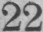22
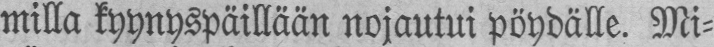milla kyynyspäillään nojautui pöydälle. Mi-
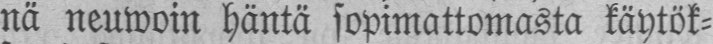nä neuwoin häntä sopimattomasta käytök-
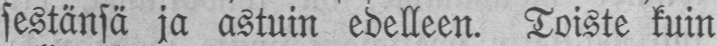sestänsä ja astuin edelleen. Toiste kuin
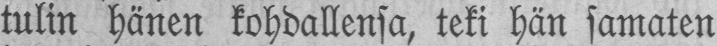tulin hänen kohdallensa, teki hän samaten
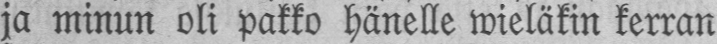ja minun oli pakko hänelle wieläkin kerran
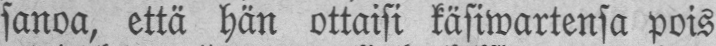sanoa, että hän ottaisi käsiwartensa pois
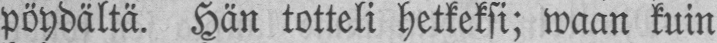pöydältä. Hän totteli hetkeksi; waan kuin
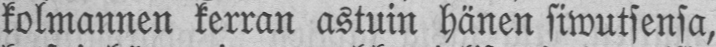kolmannen kerran astuin hänen siwutsensa,
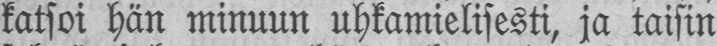katsoi hän minuun uhkamielisesti, ja taisin
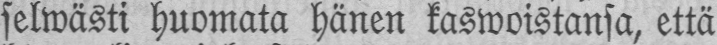selwästi huomata hänen kaswoistansa, että
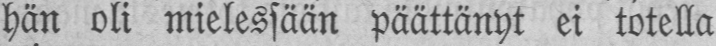hän oli mielessään päättänyt ei totella
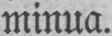minua.
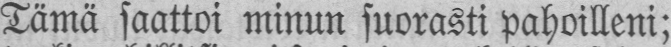Tämä saattoi minun suorasti pahoilleni;
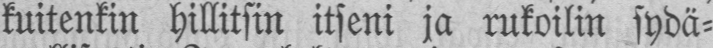kuitenkin hillitsin itseni ja rukoilin sydä-
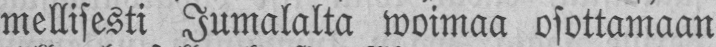mellisesti Jumalalta woimaa osottamaan
